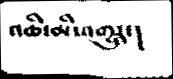འཆི་མི་འགྱུར་།
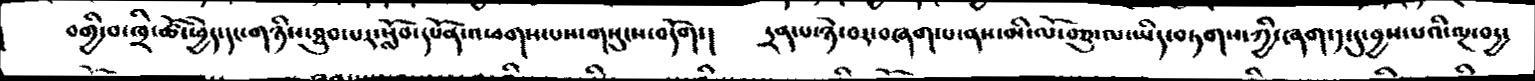བགྱི་བ་ཁྲི་ཚོ་ཕྱེད་དང་གཉིས་ཐུབ་པར་སློབ་དཔོན་འཕགས་པས་གསུངས་བདོག་།  དྲན་པ་ཉེ་བར་བཞག་པ་ནས་མི་ལོ་བཅུ་ལ་ཡིད་བཏགས་ཀྱི་ཞག་༡་དུ་བྱས་པའི་ལྔ་བདྱ་
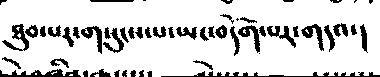ཐུབ་པར་གསུངས་པ་ཡང་བདོག་པར་གདའ་།
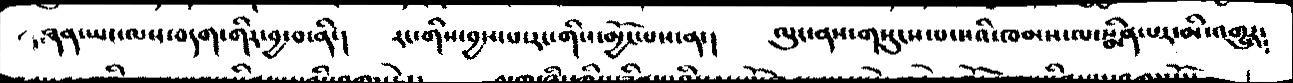ཞན་ཡང་ལས་བདག་གིར་བྱ་བ་ནི་།  རང་གིས་བྱས་པ་རང་གིས་མྱོང་པས་ན་།  ལུང་ནས་གསུངས་པ་སའི་ཁམས་ལ་སྨིན་པར་མི་འགྱུར༴
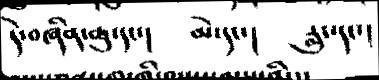དེ་བཞིན་ཆུ་དང་།   མེ་དང་།    རླུང་དང་།
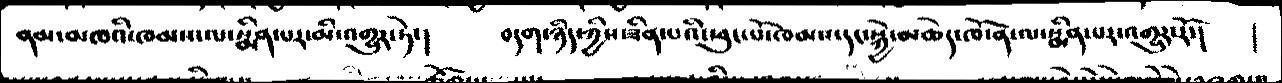ནམ་མཁའི་ཁམས་ལ་སྨིན་པར་མི་འགྱུར་ཏེ་།   བདག་ཉིད་ཀྱིས་ཟིན་པའི་ཕུ་པོ་ཁམས་དང་སྐྱེ་མཆེད་ཁོ་ན་ལ་སྨིན་པར་འགྱུར་རོ་།   །
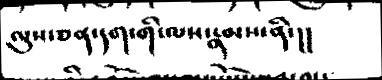ལུས་ཅན་དག་གི་ལས་རྣམས་ནི་།།།
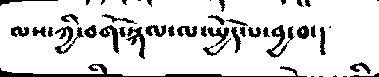ལས་ཀྱི་བགོ་སྐལ་ལ་སྤྱོད་པ་བྱ་བ་།
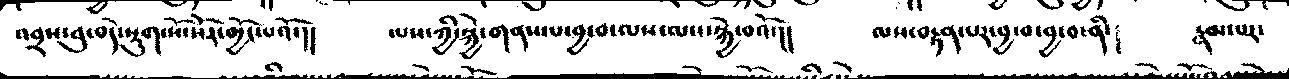འབྲས་བུ་བདེ་སྡུག་སོ་སོར་མྱོང་པའོ་།།  ལས་ཀྱི་སྐྱེ་གནས་པ་བྱ་བ་ལས་ལས་སྐྱེ་བའོ་།།  ལས་བརྟན་པར་བྱ་བ་བྱ་བ་ནི་།  རྣམ་པར་
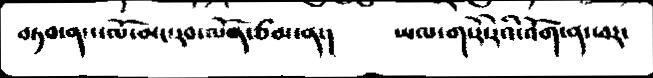བཏབ་ནས་ལོ་མང་རབ་ལོན་ཙམ་ན་།  ཡལ་ག་རེ་རེའི་འོག་ན་ཕར་
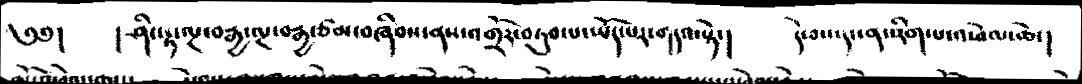༄༅།   ། ཤིང་རྟ་ལྔ་བརྒྱ་ལྔ་བརྒྱ་ཙམ་བཞིབས་ནས་འགྲོར་བཏུབ་པ་ཡོད་པར་གདའ་སྟེ་།   དེ་བས་དང་ནང་རིག་པ་འཕེལ་ཆེ་།
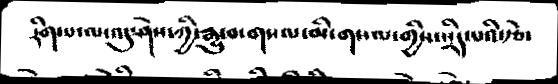རིག་པ་ལ་འདུ་ཤེས་ཀྱི་རྒྱུ་བ་གསལ་མི་གསལ་གྱིས་སྲིད་པའི་རྩེ་
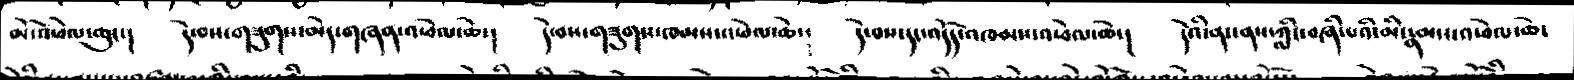མོ་འཕེལ་ཆུང་།  དེ་བས་གཟུགས་མེད་གཞན་འཕེལ་ཆེ་།  དེ་བས་གཟུགས་ཁམས་འཕེལ་ཆེ་༴    དེ་བས་དང་འདོད་འཁམས་འཕེལ་ཆེ་།  དེའི་ནང་ནས་ཀླིང་བཞི་པའི་མི་རྣམས་འཕེལ་ཆེ་
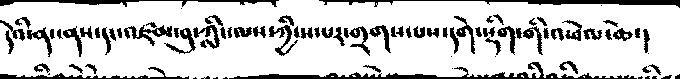དེའི་ནང་ནས་དང་འཛམ་བུ་ཀླིང་ལས་ཀྱི་ས་པར་གྲགས་པས་དགེ་སྡིག་གི་འཕེལ་ཆེ་།
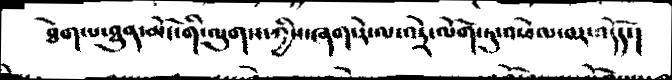ཐེག་པ་ཐུན་མོང་གི་ལུགས་ཀྱིས་ཞག་རེ་ལ་འདྲེ་ལོག་ཏུ་འཕེལ་བར་འདོད་།
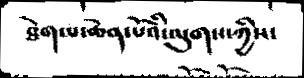ཐེག་པ་ཆེན་པོའི་ལུགས་ཀྱིས་
